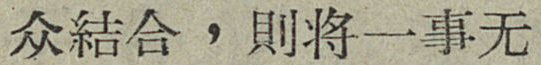众結合，則將一事无
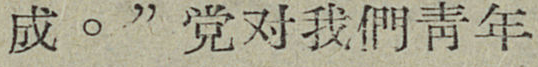成。”党对我們靑年
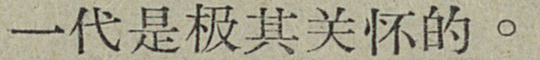一代是极其关怀的。
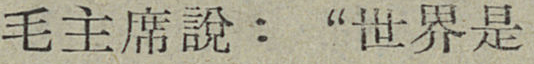毛主席說：“世界是
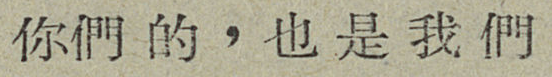你們的，也是我們
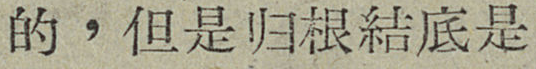的，但是归根結底是
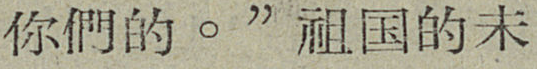你們的。”祖国的未
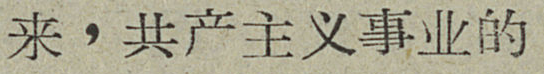来，共产主义事业的
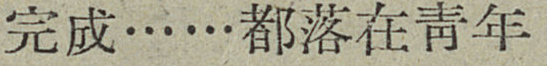完成……都落在靑年
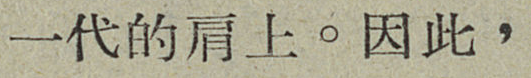一代的肩上。因此，
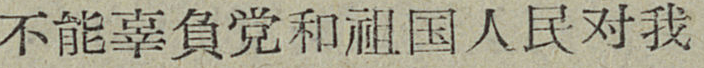不能辜負党和祖国人民对我
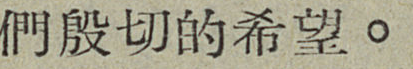們殷切的希望。
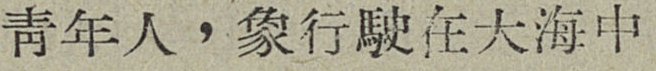靑年人，象行駛在大海中
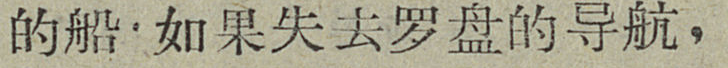的船，如果失去罗盘的导航，
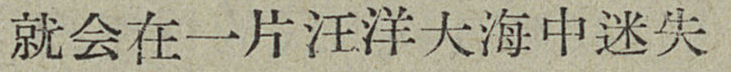就会在一片汪洋大海中迷失
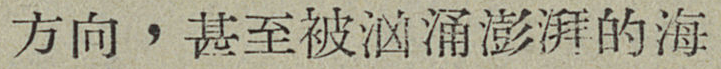方向，甚至被汹涌澎湃的海
